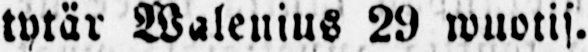tytär Walenius 29 wuotis.
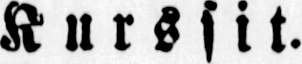Kurssit.
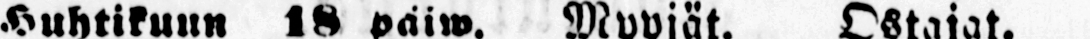Huhtikuun 18 paiw. Myyjät. Ostajat.
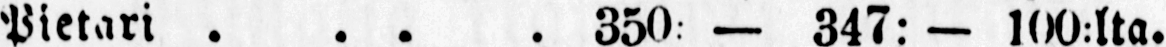Pietari 350: — 347:— 100:lta.
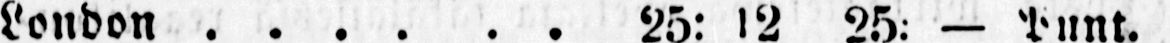London 25: 12 25 - @unt.
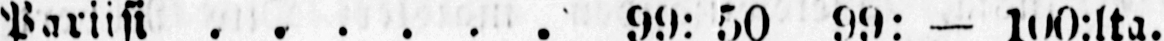Pariisi 99: 50 99: — 100:lta.
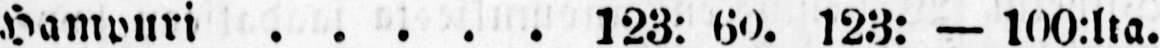Hampuri 123: 60). 123: — 100:lta.
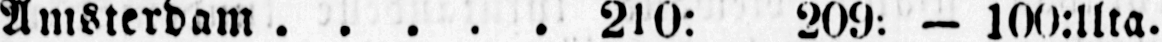Amsterdam 2l0: 209: - 100 : Ilia.
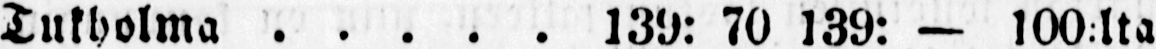Tukholma 139: 70 139: — 100-lta
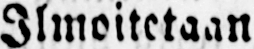Ilmoitetaan
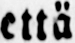että
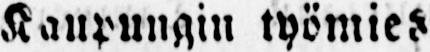Kaupungin työmies
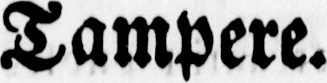Tampere.
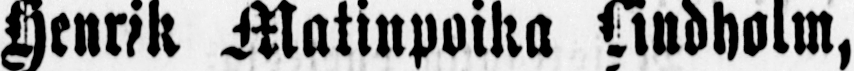Henrik Matinpoika Lindholm,
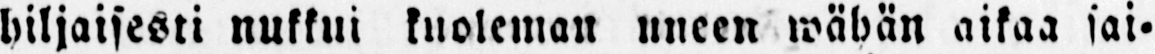hiljaisesti nukkui kuoleman uneen wähän aikaa sai-
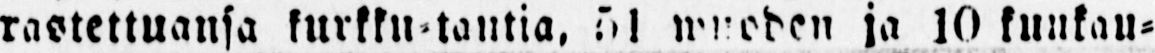rastettuansa kurkku tautia, 51 w uoden ja 10 kunkau-
